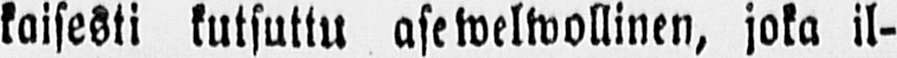kaisesti kutsuttu asewelwollinen, joka il-
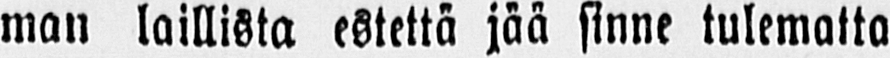man laillista estettä jää sinne tulematta
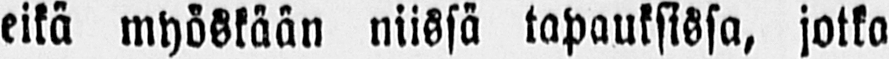eikä myöskään niissä tapauksissa, jotka
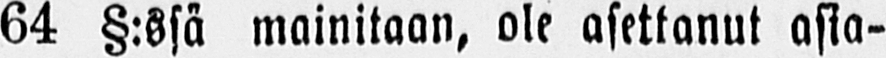64 §:ssä mainitaan, ole asettanut asia-
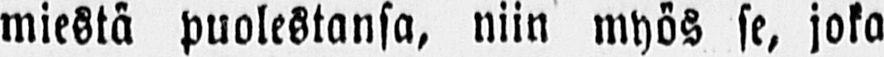miestä puolestansa, niin myös se, joko
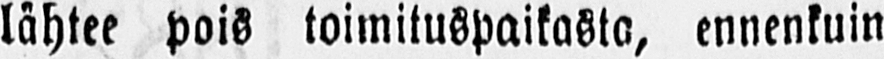lähtee pois toimituspaikasta, ennenkuin
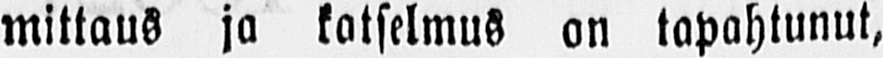mittaus ja katselmus on tapahtunut,
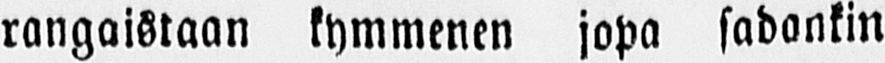rangaistaan kymmenen jopa sadonkin
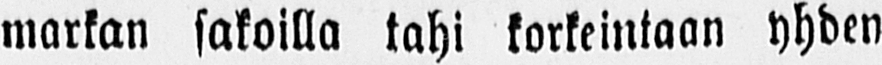markan sakoilla tahi korkeintaan yhden
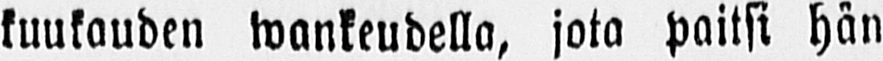kuukauden wankeudella, jota paitsi hän
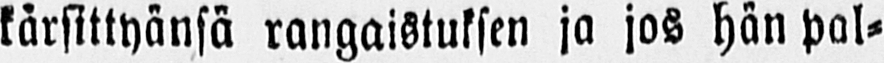kärsittyänsä rangaistuksen ja jos hän pal-
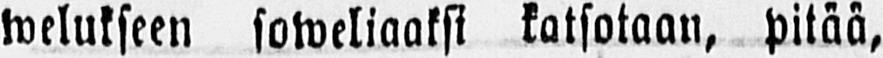welukseen soweliaaksi katsotaan, pitää,
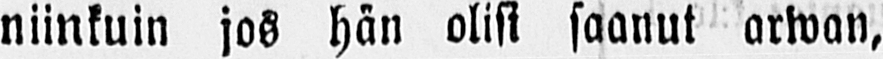niinkuin jos hän olisi saanut arwan,
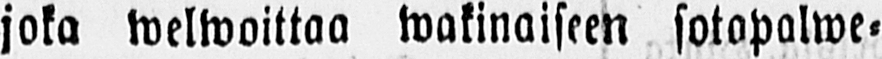joka welwoittaa wakinaiseen sotapalwe-
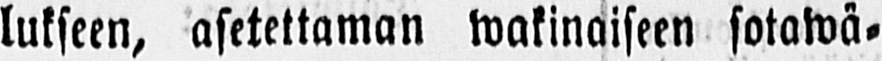lukseen, asetettaman wakinaiseen sotawä-
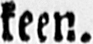keen.
